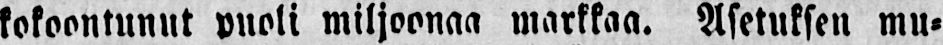kokoontunut puoli miljoonaa markkaa. Asetuksen mu-
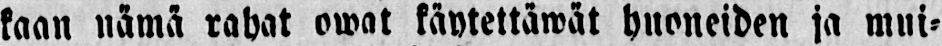kaan nämä rahat owat käytettäwät huoneiden ja mui-
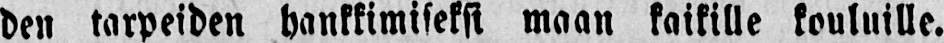den tarpeiden hankkimiseksi maan kaikille kouluille.
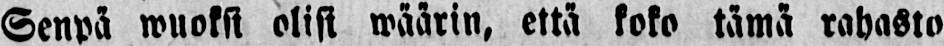Senpä wuoksi olisi wäärin, että koko tämä rahasto
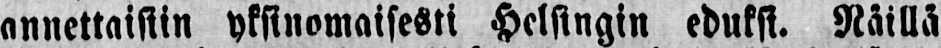annettaisiin yksinomaisesti Helsingin eduksi. Näillä
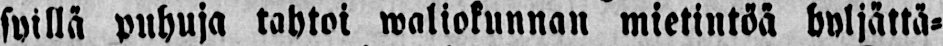syillä puhuja tahtoi waliokunnan mietintöä hyljättä-
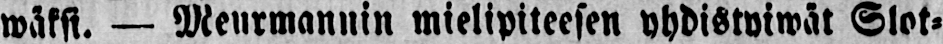wäksi. — Meurmannin mielipiteesen yhdistyiwät Slot-
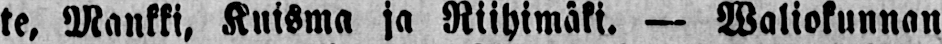te, Mankki, Kuisma ja Riihimäki. — Waliokunnan
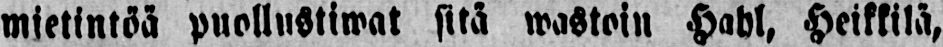mietintöä puollustiwat sitä wastoin Hahl, Heikkilä,
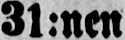31:nen
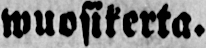wuosikerta.
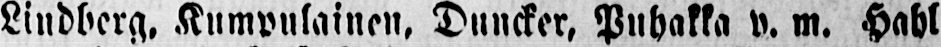Lindberg, Kumpulainen. Duncker, Puhakka y. m. Hahl
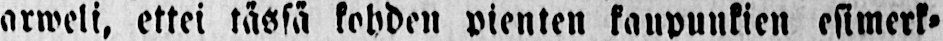arweli, ettei tässä kohden pienten kaupunkien esimerk-
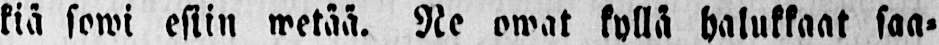kiä sowi esiin wetää. Ne owat kyllä halukkaat saa-
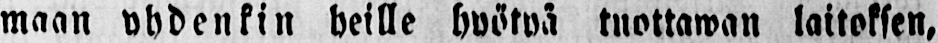maan yhdenkin heille hyötyä tuottawan laitoksen,
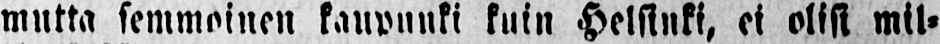mutta semmoinen kaupunki kuin Helsinki, et olisi mil-
